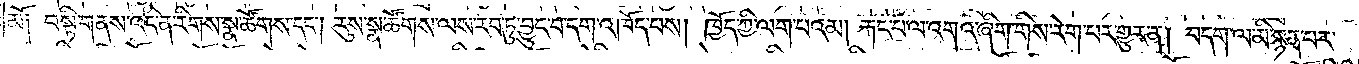མོ། བསྟི་གནས་འདི་ན་རིགས་སྣ་ཚོགས་དང༌། རུས་སྣ་ཚོགས་ལས་རབ་ཏུ་བྱུང་བ་དག་འཁོད་པས། ཁྱོད་ཀྱི་ལག་པའམ། རྐང་པ་ལ་འགའ་ཞིག་གིས་རེག་པར་གྱུར་ན། བདག་ལ་མི་སྙན་པར་
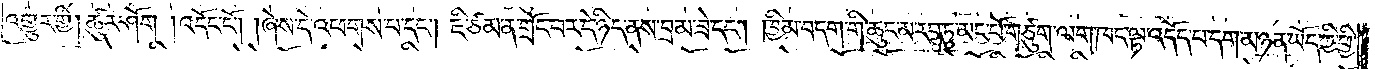འགྱུར་གྱི། ཚུར་ཤོག །འདོང་ངོ༌། །ཞེས་དེ་འཕགས་པ་དང༌། ཇི་ཙམ་ན་གྲོང་བར་དེ་ཉིད་ནས་བྲམ་ཟེ་དང༌། ཁྱིམ་བདག་གི་ཆུང་མ་རབ་ཏུ་མང་པོ་གཙུག་ལག་ཁང་ལྟ་འདོད་པ་དག་མཉན་ཡོད་ཀྱི་ཕྱི་
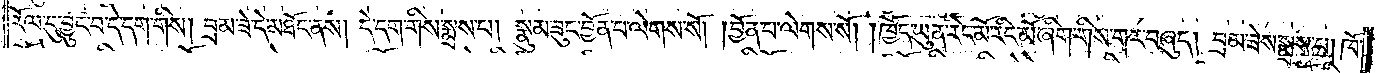རོལ་དུ་བྱུང་བ་དེ་དག་གིས། བྲམ་ཟེ་དེ་མཐོང་ནས། དེ་དག་གིས་སྨྲས་པ། སྣུམ་ཟུང་བྱོན་པ་ལེགས་སོ། །བྱོན་པ་ལེགས་སོ། །ཁྱོད་ཡུན་རིང་མོ་རིང་མོ་ཞིག་གིས་གར་བཞུད། བྲམ་ཟེས་སྨྲས་པ། ཁོ་
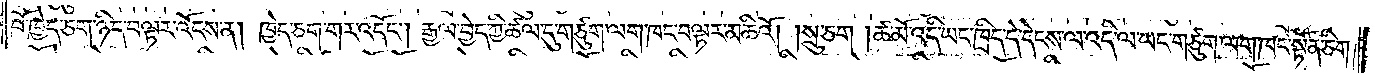བོ་ཁྱེད་ཅག་ཉིད་བལྟར་འོངས་ན། ཁྱེད་ཅག་གར་འདོང༌། རྒྱལ་བྱེད་ཀྱི་ཚལ་དུ་གཙུག་ལག་ཁང་བལྟར་མཆིའོ། །སྲུ་ཅག །ཚ་མོ་འདི་ཡང་ཁྲིད་དེ་དེངས་ལ་འདི་ལ་ཡང་གཙུག་ལག་ཁང་སྟོན་ཅིག་
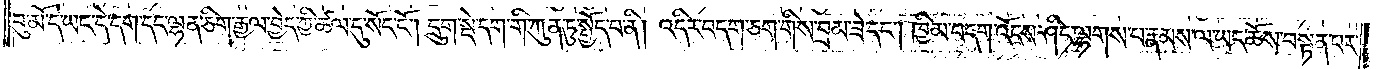བུ་མོ་དེ་ཡང་དེ་དག་དང་ལྷན་ཅིག་རྒྱལ་བྱེད་ཀྱི་ཚལ་དུ་སོང་ངོ༌། །དྲུག་སྡེ་དག་གི་ཀུན་ཏུ་སྤྱོད་པ་ནི། འདིར་བདག་ཅག་གིས་བྲམ་ཟེ་དང༌། ཁྱིམ་བདག་འོངས་ཤིང་ལྷགས་པ་རྣམས་ལ་ཡང་ཆོས་བསྟན་པར་
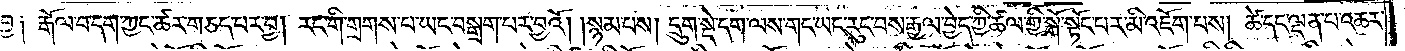བྱ༑ རྒོལ་བ་དག་ཀྱང་ཚར་གཅད་པར་བྱ། རང་གི་གྲགས་པ་ཡང་བསྒྲག་པར་བྱའོ། །སྙམ་པས། དྲུག་སྡེ་དག་ལས་གང་ཡང་རུང་བས་རྒྱལ་བྱེད་ཀྱི་ཚལ་གྱི་སྒོ་སྟོང་པར་མི་འཇོག་པས། ཚེ་དང་ལྡན་པ་འཆར་
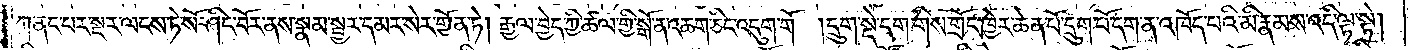ཀ་ནང་པར་སྔར་ལངས་ཏེ་སོ་ཤིང་བོར་ནས་སྣམ་སྦྱར་དམར་སེར་གྱོན་ཏེ། རྒྱལ་བྱེད་ཀྱི་ཚལ་གྱི་སྒོ་ན་འཆག་ཅིང་འདུག་གོ །དྲུག་སྡེ་དག་གིས་གྲོང་ཁྱེར་ཆེན་པོ་དྲུག་པོ་དག་ན་འཁོད་པའི་མི་རྣམས་འདི་ལྟ་སྟེ།
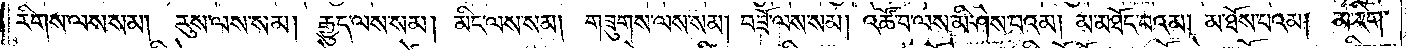རིགས་ལས་སམ། རུས་ལས་སམ། རྒྱུད་ལས་སམ། མིང་ལས་སམ། གཟུགས་ལས་སམ། བཟོ་ལས་སམ། འཚོ་བ་ལས་མི་ཤེས་པའམ། མ་མཐོང་བའམ། མ་ཐོས་པའམ། མ་རིག་
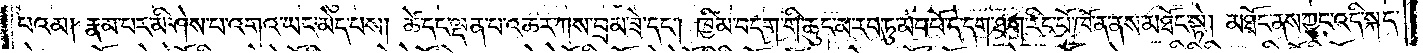པའམ། རྣམ་པར་མི་ཤེས་པ་འགའ་ཡང་མེད་པས། ཚེ་དང་ལྡན་པ་འཆར་ཀས་བྲམ་ཟེ་དང༌། ཁྱིམ་བདག་གི་ཆུང་མ་རབ་ཏུ་མང་པོ་དེ་དག་ཐག་རིང་པོ་ཁོ་ན་ནས་མཐོང་སྟེ། མཐོང་ནས་ཀྱང་འདི་སྐད་
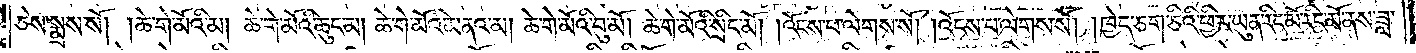ཅེས་སྨྲས་སོ། །ཆེ་གེ་མོའི་མ། ཆེ་གེ་མོའི་ཆུང་མ། ཆེ་གེ་མོའི་མནའ་མ། ཆེ་གེ་མོའི་བུ་མོ། ཆེ་གེ་མོའི་སྲིང་མོ། འོངས་པ་ལེགས་སོ། །འོངས་པ་ལེགས་སོ། །ཁྱེད་ཅག་ཅིའི་ཕྱིར་ཡུན་རིང་མོ་རིང་མོ་ནས་ཟླ་
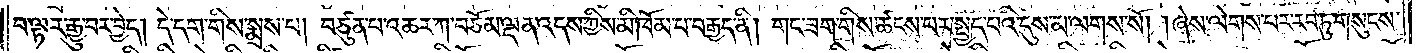བ་ལྟར་རྒྱུ་བར་བྱེད། དེ་དག་གིས་སྨྲས་པ། བཙུན་པ་འཆར་ཀ་བཅོམ་ལྡན་འདས་ཀྱིས་མི་ཁོམ་པ་བརྒྱད་ནི། གང་ཟག་གིས་ཚངས་པར་སྤྱད་པའི་དུས་མ་ལགས་སོ། །ཞེས་ལེགས་པར་རབ་ཏུ་གསུངས་
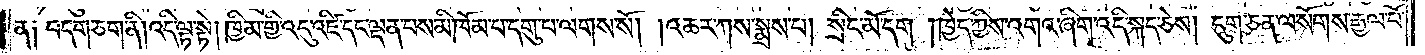ན༑ བདག་ཅག་ནི། འདི་ལྟ་སྟེ། ཁྱིམ་གྱི་འདུ་འཛི་དང་ལྡན་པས་མི་ཁོམ་པ་དགུ་པ་ལགས་སོ། །འཆར་ཀས་སྨྲས་པ། སྲིང་མོ་དག །ཁྱེད་ཀྱིས་འགའ་ཞིག་འདི་སྐད་ཅེས། དུག་ཅན་ལ་སོགས་རྒྱལ་པོ་
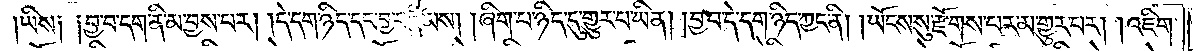ཡིས༑ ༑བྱ་བ་དག་ནི་མ་བྱས་པར། །དེ་དག་ཉིད་དང་བྱ་བ་རྣམས། །ཞིག་པ་ཉིད་དུ་གྱུར་པ་ཡིན། །བྱ་བ་དེ་དག་ཉིད་ཀྱང་ནི། །ཡོངས་སུ་རྫོགས་པར་མ་གྱུར་པར། །འཇིག་
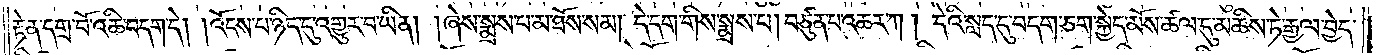རྟེན་དགྲ་བོ་འཆི་བདག་དེ། །འོངས་པ་ཉིད་དུ་འགྱུར་བ་ཡིན། །ཞེས་སྨྲས་པ་མ་ཐོས་སམ། དེ་དག་གིས་སྨྲས་པ། བཙུན་པ་འཆར་ཀ ། དེའི་སླད་དུ་བདག་ཅག་སྐྱེད་མོས་ཚལ་དུ་མཆིས་ཏེ་རྒྱལ་བྱེད་
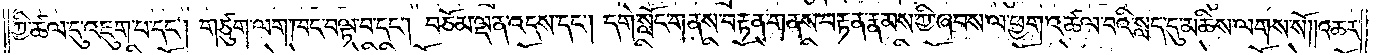ཀྱི་ཚལ་དུ་འཇུག་པ་དང༌། གཙུག་ལག་ཁང་བལྟ་བ་དང༌། བཅོམ་ལྡན་འདས་དང༌། དགེ་སློང་གནས་བརྟན་གནས་བརྟན་རྣམས་ཀྱི་ཞབས་ལ་ཕྱག་འཚལ་བའི་སླད་དུ་མཆིས་ལགས་སོ༎འཆར་
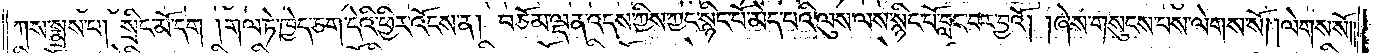ཀས་སྨྲས་པ། སྲིང་མོ་དག །གལ་ཏེ་ཁྱེད་ཅག་དེའི་ཕྱིར་འོངས་ན། བཅོམ་ལྡན་འདས་ཀྱིས་ཀྱང་སྙིང་པོ་མེད་པའི་ལུས་ལས་སྙིང་པོ་བླང་བར་བྱའོ། །ཞེས་གསུངས་པས་ལེགས་སོ། །ལེགས་སོ༎
